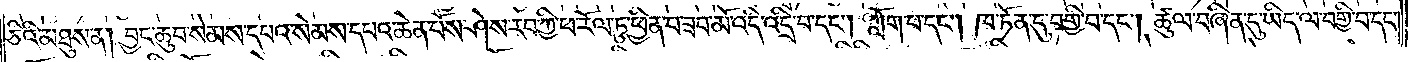ཅིའི་མཐུས་ན། བྱང་ཆུབ་སེམས་དཔའ་སེམས་དཔའ་ཆེན་པོས་ཤེས་རབ་ཀྱི་ཕ་རོལ་ཏུ་ཕྱིན་པ་ཟབ་མོ་འདི་འདྲི་བ་དང༌། ཀློག་པ་དང༌། ཁ་ཏོན་དུ་བགྱི་བ་དང༌། ཚུལ་བཞིན་དུ་ཡིད་ལ་བགྱི་བ་དང༌།
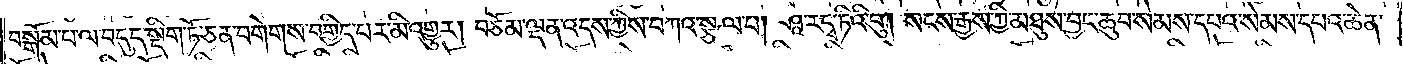བསྒོམ་པ་ལ་བདུད་སྡིག་ཏོ་ཅན་བགེགས་བགྱིད་པར་མི་འགྱུར། བཅོམ་ལྡན་འདས་ཀྱིས་བཀའ་སྩལ་པ། ཤཱ་ར་དྭ་ཏིའི་བུ། སངས་རྒྱས་ཀྱི་མཐུས་བྱང་ཆུབ་སེམས་དཔའ་སེམས་དཔའ་ཆེན་
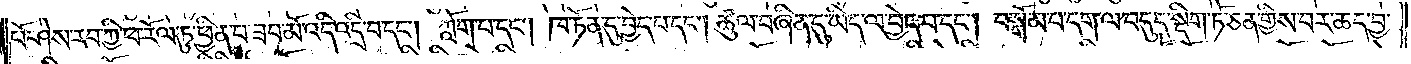པོ་ཤེས་རབ་ཀྱི་ཕ་རོལ་ཏུ་ཕྱིན་པ་ཟབ་མོ་འདི་འདྲི་བ་དང༌། ཀློག་པ་དང༌། ཁ་ཏོན་དུ་བྱེད་པ་དང༌། ཚུལ་བཞིན་དུ་ཡིད་ལ་བྱེད་པ་དང༌། བསྒོམ་པ་དག་ལ་བདུད་སྡིག་ཏོ་ཅན་གྱིས་བར་ཆད་བྱ་
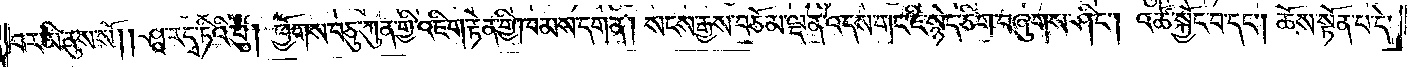བར་མི་ནུས་སོ། །ཤཱ་ར་དྭ་ཏིའི་བུ། ཕྱོགས་བཅུ་ཀུན་གྱི་འཇིག་རྟེན་གྱི་ཁམས་དག་ན། སངས་རྒྱས་བཅོམ་ལྡན་འདས་གང་ཇི་སྙེད་ཅིག་བཞུགས་ཤིང༌། འཚོ་སྐྱོང་བ་དང༌། ཆོས་སྟོན་པ་དེ་
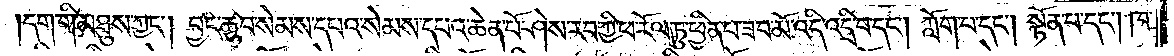དག་གི་མཐུས་ཀྱང༌། བྱང་ཆུབ་སེམས་དཔའ་སེམས་དཔའ་ཆེན་པོ་ཤེས་རབ་ཀྱི་ཕ་རོལ་ཏུ་ཕྱིན་པ་ཟབ་མོ་འདི་འདྲི་བ་དང༌། ཀློག་པ་དང༌། སྟོན་པ་དང༌། ཁ་
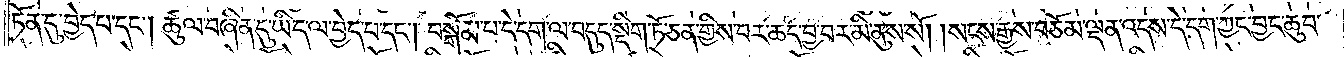ཏོན་དུ་བྱེད་པ་དང༌། ཚུལ་བཞིན་དུ་ཡིད་ལ་བྱེད་པ་དང༌། བསྒོམ་པ་དེ་དག་ལ་བདུད་སྡིག་ཏོ་ཅན་གྱིས་བར་ཆད་བྱ་བར་མི་ནུས་སོ། །སངས་རྒྱས་བཅོམ་ལྡན་འདས་དེ་དག་ཀྱང་བྱང་ཆུབ་
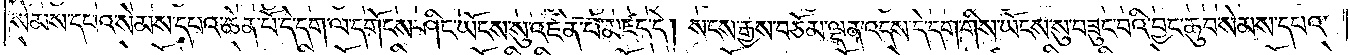སེམས་དཔའ་སེམས་དཔའ་ཆེན་པོ་དེ་དག་ལ་དགོངས་ཤིང་ཡོངས་སུ་འཛིན་པ་མཛད་དོ། སངས་རྒྱས་བཅོམ་ལྡན་འདས་དེ་དག་གིས་ཡོངས་སུ་བཟུང་བའི་བྱང་ཆུབ་སེམས་དཔའ་
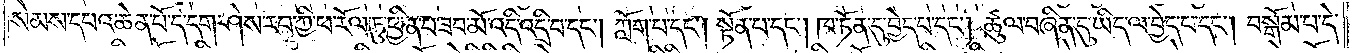སེམས་དཔའ་ཆེན་པོ་དེ་དག་ཤེས་རབ་ཀྱི་ཕ་རོལ་ཏུ་ཕྱིན་པ་ཟབ་མོ་འདི་འདྲི་བ་དང༌། ཀློག་པ་དང༌། སྟོན་པ་དང༌། ཁ་ཏོན་དུ་བྱེད་པ་དང༌། ཚུལ་བཞིན་དུ་ཡིད་ལ་བྱེད་པ་དང༌། བསྒོམ་པ་དེ་
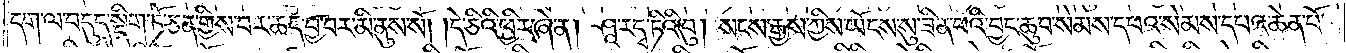དག་ལ་བདུད་སྡིག་ཏོ་ཅན་གྱིས་བར་ཆད་བྱ་བར་མི་ནུས་སོ། །དེ་ཅིའི་ཕྱིར་ཞེ་ན། ཤཱ་ར་དྭ་ཏིའི་བུ། སངས་རྒྱས་ཀྱིས་ཡོངས་སུ་ཟིན་པའི་བྱང་ཆུབ་སེམས་དཔའ་སེམས་དཔའ་ཆེན་པོ་
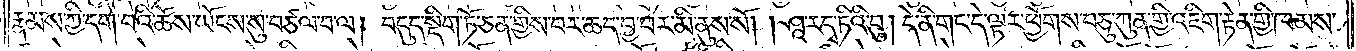རྣམས་ཀྱི་དགེ་བའི་ཆོས་ཡོངས་སུ་བཙལ་བ་ལ། བདུད་སྡིག་ཏོ་ཅན་གྱིས་བར་ཆད་བྱ་བར་མི་ནུས་སོ། །ཤཱ་ར་དྭ་ཏིའི། བུ་དེ་ནི་གང་དེ་ལྟར་ཕྱོགས་བཅུ་ཀུན་གྱི་འཇིག་རྟེན་གྱི་ཁམས་
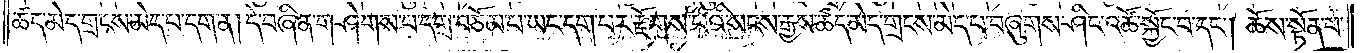ཚད་མེད་གྲངས་མེད་པ་དག་ན། དེ་བཞིན་གཤེགས་པ་དགྲ་བཅོམ་པ་ཡང་དག་པར་རྫོགས་པའི་སངས་རྒྱས་ཚད་མེད་གྲངས་མེད་པ་བཞུགས་ཤིང་འཚོ་སྐྱོང་བ་དང༌། ཆོས་སྟོན་པ་
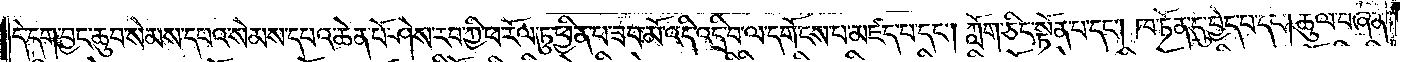དེ་དག་བྱང་ཆུབ་སེམས་དཔའ་སེམས་དཔའ་ཆེན་པོ་ཤེས་རབ་ཀྱི་ཕ་རོལ་ཏུ་ཕྱིན་པ་ཟབ་མོ་འདི་འདྲི་བ་ལ་དགོངས་པ་མཛད་པ་དང༌། ཀློག་ཅིང་སྟོན་པ་དང༌། ཁ་ཏོན་དུ་བྱེད་པ་དང༌། ཚུལ་བཞིན་
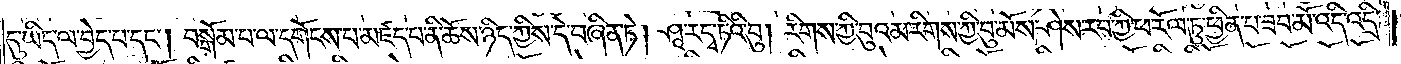དུ་ཡིད་ལ་བྱེད་པ་དང༌། བསྒོམ་པ་ལ་དགོངས་པ་མཛད་པ་ནི་ཆོས་ཉིད་ཀྱིས་དེ་བཞིན་ཏེ། ཤཱ་ར་དྭ་ཏིའི་བུ། རིགས་ཀྱི་བུའམ་རིགས་ཀྱི་བུ་མོས་ཤེས་རབ་ཀྱི་ཕ་རོལ་ཏུ་ཕྱིན་པ་ཟབ་མོ་འདི་འདྲི་
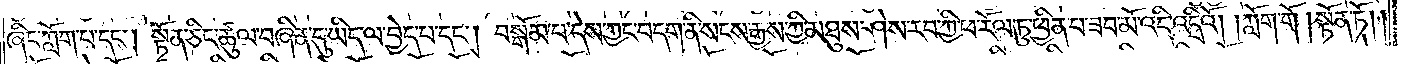ཞིང་ཀློག་པ་དང༌། སྟོན་ཅིང་ཚུལ་བཞིན་དུ་ཡིད་ལ་བྱེད་པ་དང༌། བསྒོམ་པ་དེས་ཀྱང་བདག་ནི་སངས་རྒྱས་ཀྱི་མཐུས་ཤེས་རབ་ཀྱི་ཕ་རོལ་ཏུ་ཕྱིན་པ་ཟབ་མོ་འདི་འདྲིའོ། །ཀློག་གོ །སྟོན་ཏོ། །
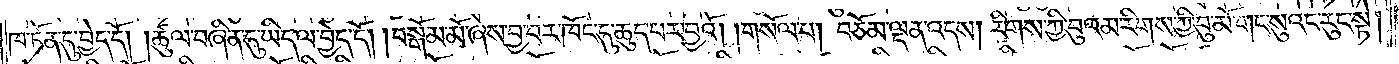ཁ་ཏོན་དུ་བྱེད་དོ། །ཚུལ་བཞིན་དུ་ཡིད་ལ་བྱེད་དོ། །བསྒོམ་མོ་ཞེས་བྱ་བར་ཁོང་དུ་ཆུད་བར་བྱའོ། །གསོལ་པ། བཅོམ་ལྡན་འདས། རིགས་ཀྱི་བུའམ་རིགས་ཀྱི་བུ་མོ་གང་སུའང་རུང་སྟེ།
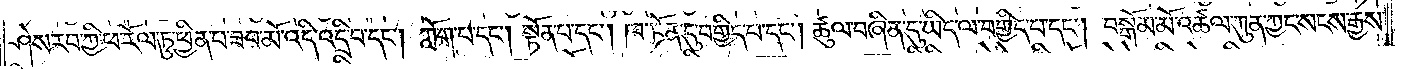ཤེས་རབ་ཀྱི་ཕ་རོལ་ཏུ་ཕྱིན་པ་ཟབ་མོ་འདི་འདྲི་བ་དང༌། ཀློག་པ་དང༌། སྟོན་པ་དང༌། ཁ་ཏོན་དུ་བགྱིད་པ་དང༌། ཚུལ་བཞིན་དུ་ཡིད་ལ་བགྱིད་པ་དང༌། བསྒོམ་མོ་འཚལ་ཀུན་ཀྱང་སངས་རྒྱས་
